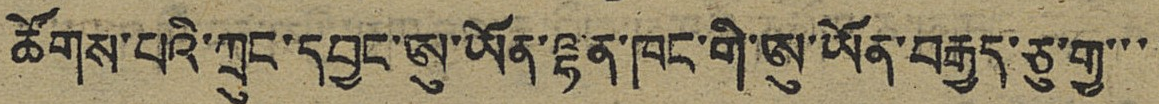ཚོགས་པའི་ཀྲུང་དབྱང་ཨུ་ཡོན་ལྷན་ཁང་གི་ཨུ་ཡོན་བརྒྱད་ཅུ་གྱ་་་་
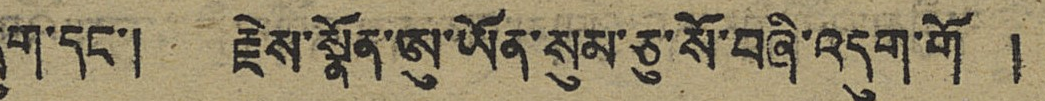དྲུག་དང་། རྗེས་སྣོན་ཨུ་ཡོན་སུམ་ཅུ་སོ་བཞི་འདུག་གོ །
